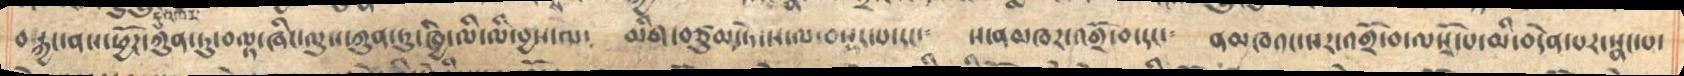བསྐྱང་ནས་ཕྱོཌ་ཀུན་ཏུ་བལྟ་ཞིང་ལུས་ཀུན་ཏུ་ཁྱི་ལི་ལི་བྱས་ལ་  མིག་བཙུམ་ཏེ་ས་ལ་བསྡད་པ་དང་   ས་ནམཁར་འགྲོ་བ་དང་  ནམཁའང་སྲ་འགྲོ་བ་ལསྭོ་པ་མི་བདེན་པར་སྣང་པ་
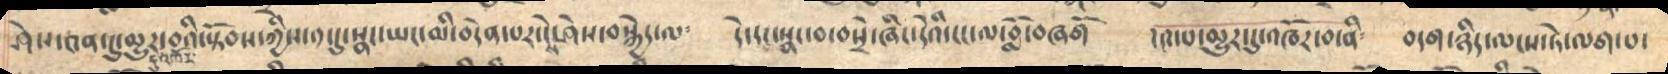ཤེས་༤ན་དུ་མྱུར་དུ་འཁོར་བའི་སྟོབས་ཀྱིས་༡་དུ་སྣང་ཡང་མི་བདེན་པར་ངེས་ཤེས་བསྐྱེད་ལ  དེ་དང་སྣང་བ་བསྲེ་ཞིང་དེའི་ངང་ལ་བློ་བཞགོ    །༤་པ་མྱུར་དུ་འཁོར་བ་ནི  བདག་ཉིད་ལངས་ཏེ་ལག་པ་
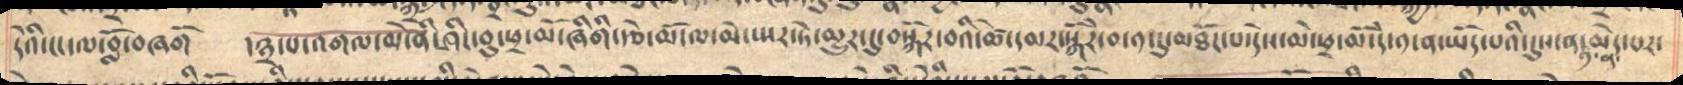དེའི་ངང་ལ་བློ་བཞགོ  །༣་པ་འགལ་མེ་ནི་ཤིང་བུ་ཕྲ་མོ་ཞིགི་རྩེ་མོ་ལ་མེ་སྤར་ཏེ་མྱུར་དུ་བསྐོར་བའི་ཚེ་དམར་སྒོརེ་བ་༡་དུ་མཐོང་པ་དང་དེས་མེ་ཕྲ་མོ་དེ་༡་ན་ཡོད་པའི་དུས་ན་༡་ན་མེད་པར་
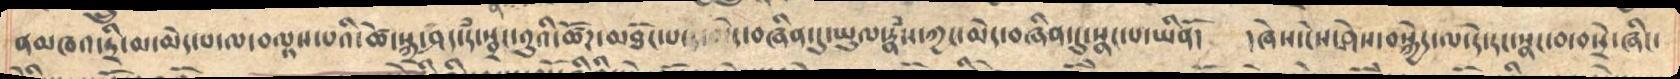ནམཁའ་དྲི་མ་མེད་པ་་བལྟས་པའི་ཚེ་སྐྲ་ཤད་དཾ་སྦྲང་བུའི་ཚོཌ་མཐོང་པ་མེད་བཞིན་དུ་ཡུལ་རྣཾས་ཀྱང་མེད་བཞིན་དུ་སྣང་པ་ཡིནོ།   །ཞེས་ངེས་ཤེས་བསྐྱེད་ལ་དེ་དང་སྣང་བ་བསྲེ་ཞིང་
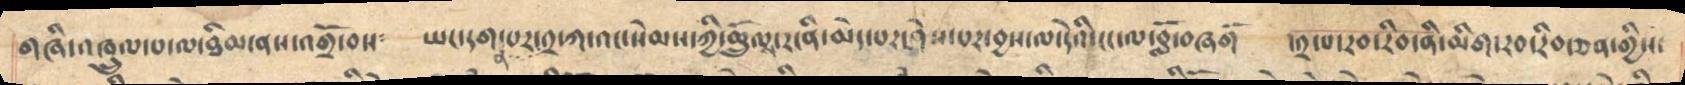གཞི་འཁྲུལ་པ་ལ་ཐིམ་ནས་འགྲོ་བས༴   ཡང་དག་པར་ན་༢་ཀ་འང་སེམས་ཀྱི་ཆྲོུལས་རངིན་མེད་པར་ཤེས་པར་བྱས་ལ་དེའི་ངང་ལ་བློ་བཞགོ   ་༢་པ་རབ་རིབ་ནི་མིག་རབ་རིབ་ཅན་གྱིས་
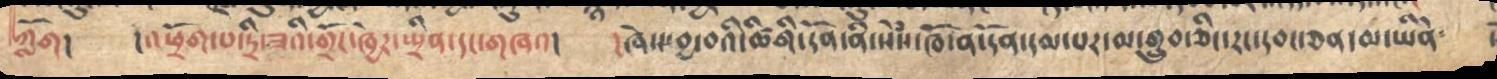ཀློག།   །འཕྲོག་པ་དྲི་ཟའི་གྲོང་ཁྱེར་སྤྲིན་དང་གཞའ།   །ཞེས་བྱ་བའི་ཚིགི་དོན་ནི་སེཾས་ཁོ་ན་དོན་དམ་པར་མ་གྲུབ་ཅིང་རང་དབང་ཅན་མ་ཡིནོ
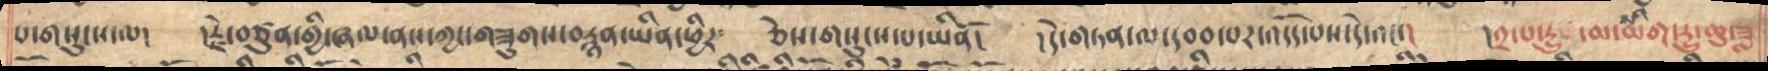པ་གསུངས་ལ།   །རྗེ་བཙུན་གྱི་ཞལ་ནས་ཀྱང་གཟུགས་བརྙན་ཡིན་ཕྱིར  ཅེས་གསུངས་པ་ཡིནོ།   །དེ་ལ་གཏན་ལ་དབབ་པར་འདོད་པས་དེའང་།   །༢་པ་རྱུ་མིག་རྡུ་ཆུ་ཟླ
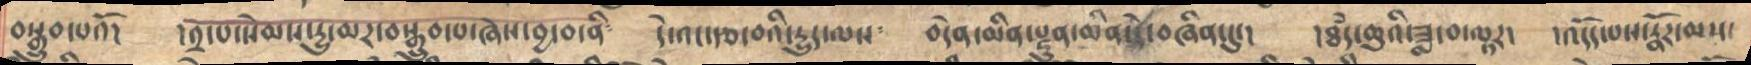བསྒྲུབ་པའོ།   །་༢་པ་སེམས་རྱུ་མར་བསྒྲུབ་ཞེས་བྱ་བ་ནི༴  དེ་འང་རྩ་བའི་རྱུད་ལས༴   བདེན་མིན་སྫུན་མིན་དེ་བཞིན་དུ་།  །ཐྃད་ཆུའི་་ཟླ་བ་ལྟར།  །འདོད་པས་རྣོར་མས
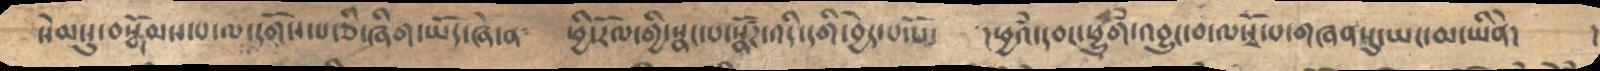སེམསུ་བསྒོམས་པ་ལ་དགོས་པ་ཅི་ཞིག་ཡོད་ཞེ་ན༴ ཕྱི་རོལ་གྱི་སྣང་པ་སྣོཌ་འདི་དགི་བྱེད་པ་པོ་ །ཕྱའཾ་དབང་ཕྱུགཾ་འབྱུང་བ་ལསྭོ་པ་གཞན་སུ་ཡང་མ་ཡིནེ། །
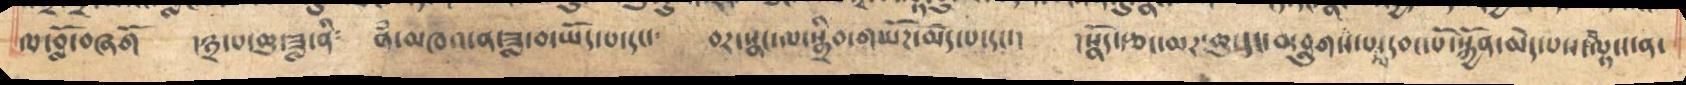ལ་བློ་བཞགོ   །༣་པ་ཆུ་ཟླ་ནི༴   ནཾ་མཁའ་ན་ཟླ་བ་ཡོད་པ་དང་  བར་སྣང་ལ་སྒྲིབ་གཡོཌ་མེད་པ་དང་།  །སྣོད་རྩང་མར་ཆུ་དང་པ་བླུགས་པ་དབང་པོ་སྐྱོན་མེད་པས་ལྟ་ང་ན་
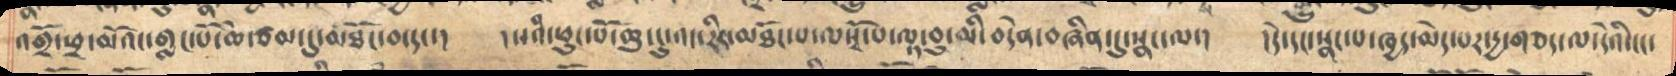འགྲོ་ཕྲ་མོའང་གླང་པོ་ཆེ་ཙམ་དུ་མཐོང་བ་དང་། །སའི་ཕུང་པོ་ཆུ་ངུ་འང་རིར་མཐོང་པ་ལསྭོ་པ་ལྟ་བུ་མི་བདེན་བཞིན་དུ་སྣང་ལ་། །དེ་དང་སྣང་པ་ཁྱད་མེད་པར་དྱ་གཅད་ལ་དེའི་ངང་
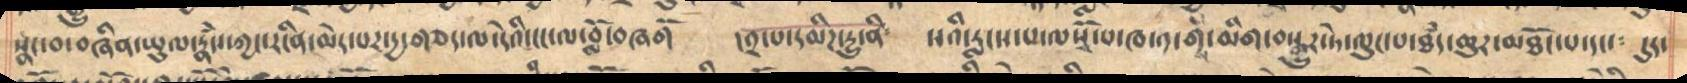སྣང་བ་བཞིན་ཡུལ་རྣཾས་ཀྱང་རངིན་མེད་པར་དྱ་གཅད་ལ་དེའི་ངང་ལ་བློ་བཞགོ   །༢་པ་དམིཌ་དྱུ་ནི  སའི་རླངས་པ་ལསྭོ་པ་ཁ་༡་གིས་མིག་བསྒྱུར་ཏེ་ལུང་པ་ཐཾད་ཆུར་མཐོང་པ་དང་།  དུར་
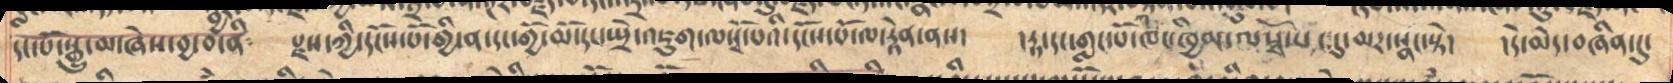དང་པོ་སྒྱུ་མ་ཞེས་བྱ་བ་ནི   རྫས་ཀྱི་དངོས་པོ་གྱི་ན་དང་གྱོ་མོ་དང་སྤྲེ་འཇུག་ལསྭོ་པའི་དངོས་པོ་ལ་རྟེན་ནས།  །རྟ་དང་གླང་པོ་ཁང་ཁྱིམ་ལསྭོ་པ་དུ་མར་སྣང་སྟེ།   །དེ་མེད་བཞིན་དུ་
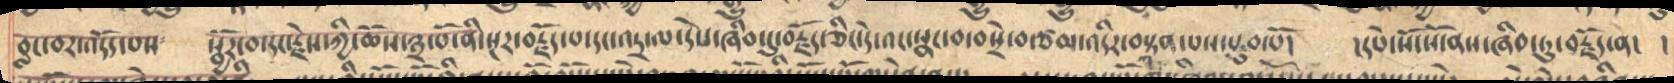བླང་བར་འདོད་པས༴ སྦྱོར་བ་དང་རྗེས་ཀྱི་ཆོས་༣་པོ་ནི་སྔར་བརྗོད་པ་དང་འདྲ་ལ་དེས་ཞིབ་དུ་བརྗོད་ཅིང་དེ་འང་སྣང་བ་བསྲེ་བ་ཙམ་འདིར་བསྟན་པས་པུབ་པོ། །དཔེ་སོ་སོ་ནས་ཞིབ་ཏུ་བརྗོད་ན། །
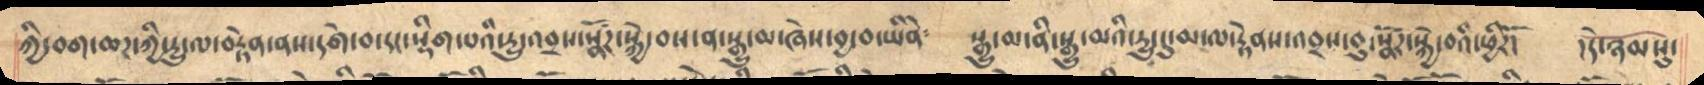ཀྱི་བག་ཆཌ་ཀྱི་རྱུ་ལ་བརྟེན་ནས་དགེ་བ་དང་སྡིག་པའི་རྱུ་འབྲས་སྣོཌ་སྐྱེ་བས་ན་སྒྱུ་མ་ཞེས་བྱ་བ་ཡིནེ༴ སྒྱུ་མ་ནི་སྒྱུ་མའི་རྱུ་དུ་མ་ལ་རྟེནས་འབྲས་བུ་སྣོཌ་སྐྱེ་བའི་ཕྱིརོ། །དེ་ཉམསུ་
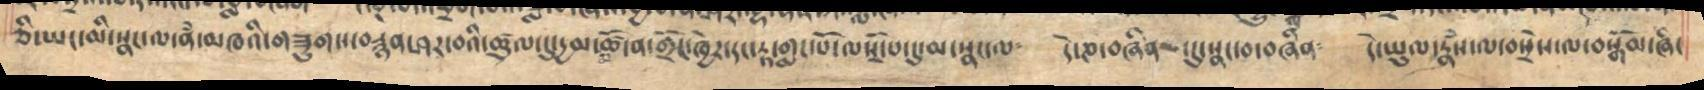ཅི་ཡང་མི་སྣང་ལ་ནཾ་མཁའི་གཟུགས་བརྙན་ཤར་བའི་ཚུལ་དུ་དྱམ་མཚོ་ན་གྲོང་ཁྱེར་དང་རྟ་གླང་པོ་ལསྭོ་པ་དུ་མ་སྣང་ལ  དེ་ཎ་བཞིན་དུ་སྣང་བ་བཞིན༴   དེ་ཡུལ་རྣཾས་ལ་བསྲེས་ལ་བསྒོམ་ཞིང་
